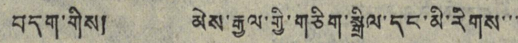བདག་གིས། མེས་རྒྱལ་གྱི་གཅིག་སྒྲིལ་དང་མི་རིགས་་་
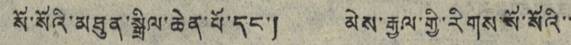སོ་སོའི་མཐུན་སྒྲིལ་ཆེན་པོ་དང་། མེས་རྒྱལ་གྱི་རིགས་སོ་སོའི་་
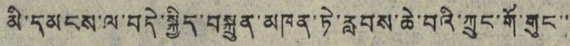མི་དམངས་ལ་བདེ་སྐྱིད་བསྐྲུན་མཁན་ཏེ་རླབས་ཆེ་བའི་ཀྲུང་གོ་གུང་་
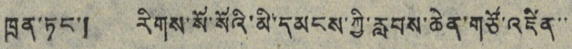ཁྲན་ཏང་། རིགས་སོ་སོའི་མི་དམངས་ཀྱི་རླབས་ཆེན་གཙོ་འཛིན་་
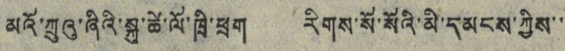མའོ་ཀྲུའུ་ཞིའི་སྐུ་ཚེ་ལོ་ཁྲི་ཕྲག རིགས་སོ་སོའི་མི་དམངས་ཀྱིས་་་
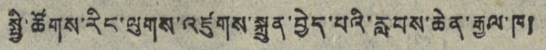སྤྱི་ཚོགས་རིང་ལུགས་འཛུགས་སྐྲུན་བྱེད་པའི་རླབས་ཆེན་རྒྱལ་ཁ།
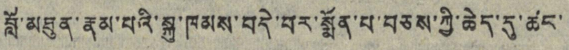བློ་མཐུན་རྣམ་པའི་སྐུ་ཁམས་བདེ་བར་སྨོན་པ་བཅས་ཀྱི་ཆེད་དུ་ཚང་
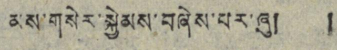མས་གསེར་སྐྱེམས་བཞེས་པར་ཞུ། །
